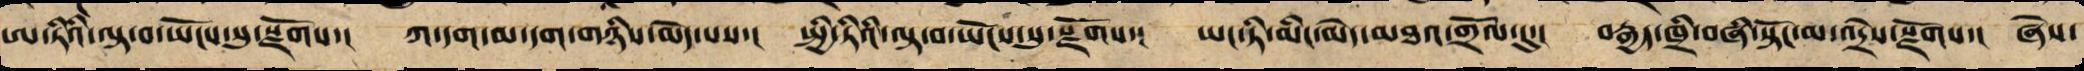ཨ་ཏིའི་ལྟ་བ་ཡོངས་སུ་སྫོགས་། ཀ་དག་མ་དག་གཉིས་མེད་པས་། སྤྱི་ཏིའི་ལྟ་བ་ཡོངས་སུ་སྫོགས་། ཡང་ཏི་མིང་མེད་མཐའ་གྲོལ་དུ་། བརྒྱད་ཁྲི་བཞི་སྟོང་མ་འདྲེས་སྫོགས་། ཞེས་
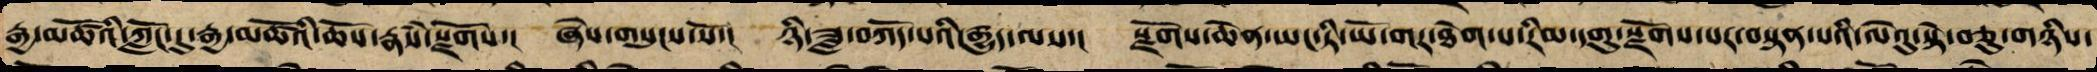རྒྱ་མཚོའི་ཀློང་དུ་རྒྱ་མཚོའི་ཆོས་རྣཾས་སྫོགས་། ཞེས་གསུངས་སོ་། ཉི་ཟླ་བཀོད་པའི་རྒྱུད་ལས་། སྫོགས་ཆེན་ཡང་ཏི་ཡོ་གར་ཐེག་པ་རིམ་བཅུ་སྫོགས་པར་བསྟན་པའི་ལེའུ་སྟེ་བཅུ་གཉིས་
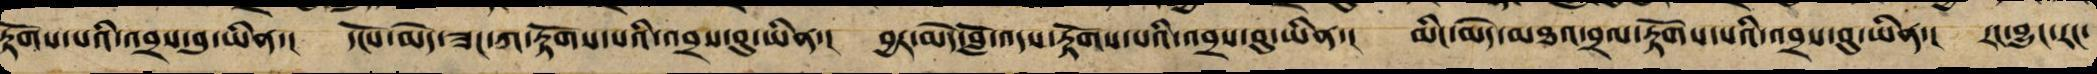རྟོགས་པ་འབྲས་བུ་ཡིན་། དངོས་མེད་ཟང་ཀ་རྟོགས་པ་འབྲས་བུ་ཡིན་། བྱར་མེད་བློ་འདས་རྟོགས་པ་འབྲས་བུ་ཡིན་། མིང་མེད་མཐའ་བྲལ་རྟོགས་པ་འབྲས་བུ་ཡིན་། རང་བྱུང་རང་
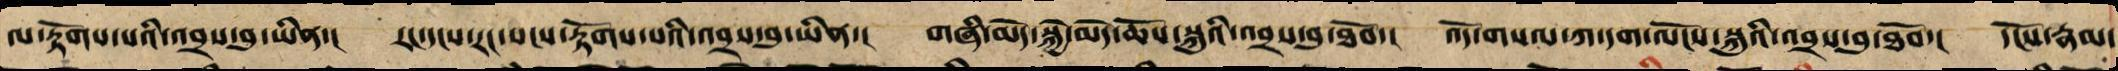ལ་རྟོགས་པ་འབྲས་བུ་ཡིན་། རང་དངས་རང་སངས་རྟོགས་པ་འབྲས་བུ་ཡིན་། གཞི་མེད་སྐྱེ་མེད་ཆོས་སྐུའི་འབྲས་བུ་ཡིན་། འོད་གསལ་ཀ་དག་ལོངས་སྐུའི་འབྲས་བུ་ཡིན་། དངོས་རྣམ་
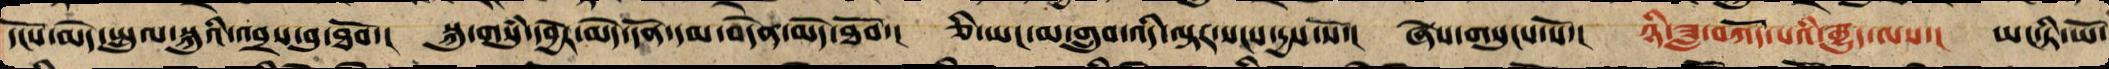དངོས་མེད་སྤྲུལ་སྐུའི་འབྲས་བུ་ཡིན་། སྐུ་གསུཾ་དབྱེར་མེད་དོན་དམ་བདེན་མེད་ཐོབ་། ཅི་ཡང་མ་གྲུབ་འདི་ལྟར་སངས་དྱས་སོ་། ཞེས་གསུངས་སོ་། ཉི་ཟླ་བཀོད་པའི་རྒྱུད་ལས་། ཡང་ཏི་ཡོ་
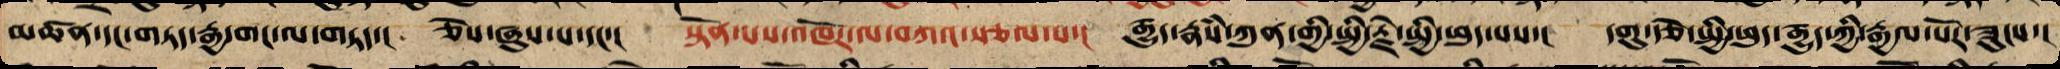མཚན་དང་གཏད་རྒྱ་གང་ལ་གཏད་། ཅེས་ཞུས་པས་། སྟོན་པས་འཁོར་ལ་བཀའ་སྩལ་པ་། རྒྱུད་རྣཾས་ཀུན་གྱི་སྤྱི་རྗེ་སྤྱི་ཕུད་པས་། དགུ་རྩེ་སྤྱི་ཕུད་རྒྱུད་ཀྱི་རྒྱལ་པོར་ཟུངས་།
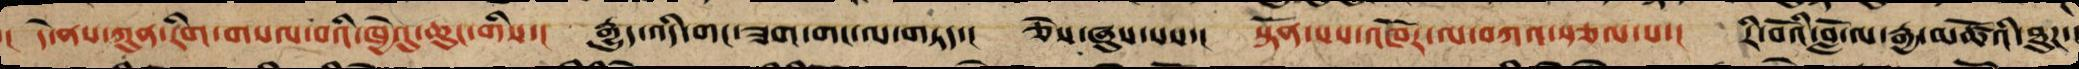། དེ་ནས་ཀུན་རིག་གསལ་བའི་ཁྱེའུ་ཆུང་གིས་། རྒྱུད་འདི་གང་ཟག་གང་ལ་གཏད་། ཅེས་ཞུས་པས་། སྟོན་པས་འཁོར་ལོ་བཀའ་རྩལ་པ་། རི་བོའི་བློ་ལ་རྒྱ་མཚོའི་ཐུཌ་།
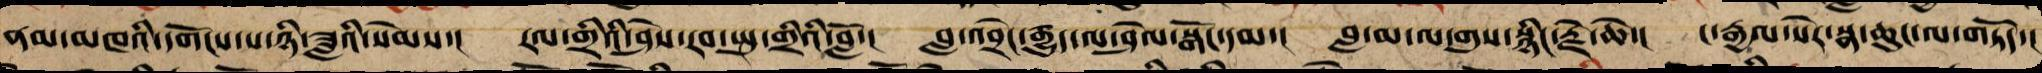ནམ་མཁའི་དགོངས་པ་ཉི་ཟླའི་སེམས་། རལ་གྲིའི་ཤེས་རབ་སྤུ་གྲིའི་བློ་། བླ་འབྲེང་རྒྱུད་ལ་ཤེལ་སྒོང་དམ་། བླ་མ་ལ་གུས་སྙིང་རྗེ་ཆེ་། ང་རྒྱལ་སེར་སྣ་ཆུང་ལ་གཏོད་།
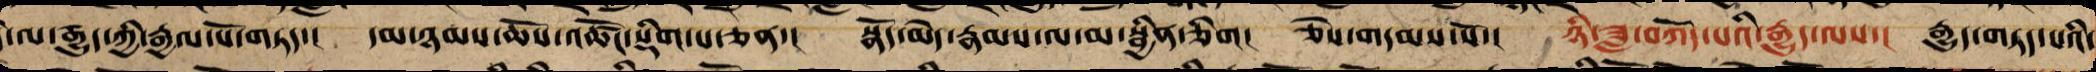་ལ་རྒྱུད་ཀྱི་རྒྱལ་པོ་གཏད་། དམ་ཉམས་ཆོས་འཚོང་སྡིག་པ་ཅན་། སྣོད་མེད་རྣམས་ལ་མ་སྦྱིན་ཅིག། ཅེས་གདམས་སོ་། ཉི་ཟླ་བཀོད་པའི་རྒྱུད་ལས་། རྒྱུད་གཏད་པའི་
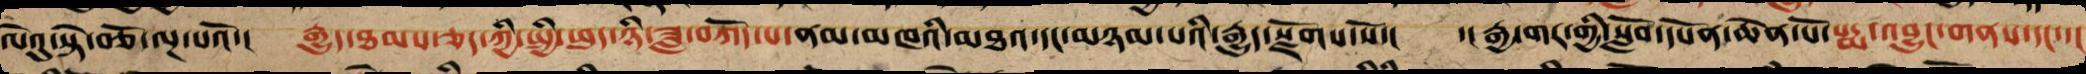ལེའུ་སྟེ་བཅོ་ལྔ་པའོ་། རྒཡུད་ཐམས་ཅད་ཀྱི་སྤྱི་ཕུད་ཉི་ཟླ་བཀོད་པ་ནམ་མཁའི་མཐའ་དང་མཉམ་པའི་རྒྱུད་སྫོགས་སོ་། ་། རྒྱ་གར་གྱི་སློབ་དཔོན་ཆེན་པོ་པདྨ་འབྱུང་གནས་དང་་།
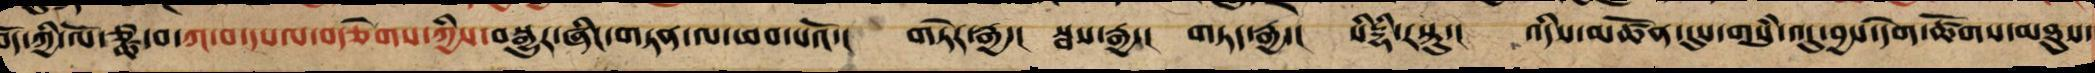བོད་ཀྱི་ལོཙྪ་བ་ཀ་བ་དཔལ་བརྩེགས་ཀྱིས་བསྒྱུར་ཞིང་གཏན་ལ་ཕབ་པའོ་། གཏེར་རྒྱ་། སྦས་རྒྱ་། གཏད་རྒྱ་།། སིདྡྷི་རསྟུ་། འདིས་མཚོན་དུས་གསུམ་འདུ་བྱས་དགེ་ཚོགས་མཐུས་།
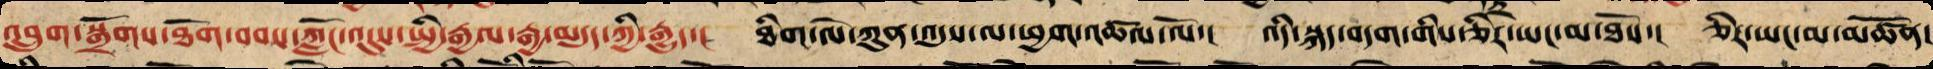འབྲུག་སྒྲོགས་ཐོག་བབས་ཀློང་འདུས་སྤྱི་རྒྱལ་རྒྱ་མདུད་ཀྱི་རྒྱུད་། ཐིག་ལེ་ཀུན་འདུས་ལ་ཕྱག་འཚལ་ལོ་། འདི་སྐད་བདག་གིས་ཅིར་ཡང་མ་ཐོས་། ཅིར་ཡང་མ་མཚོན་
